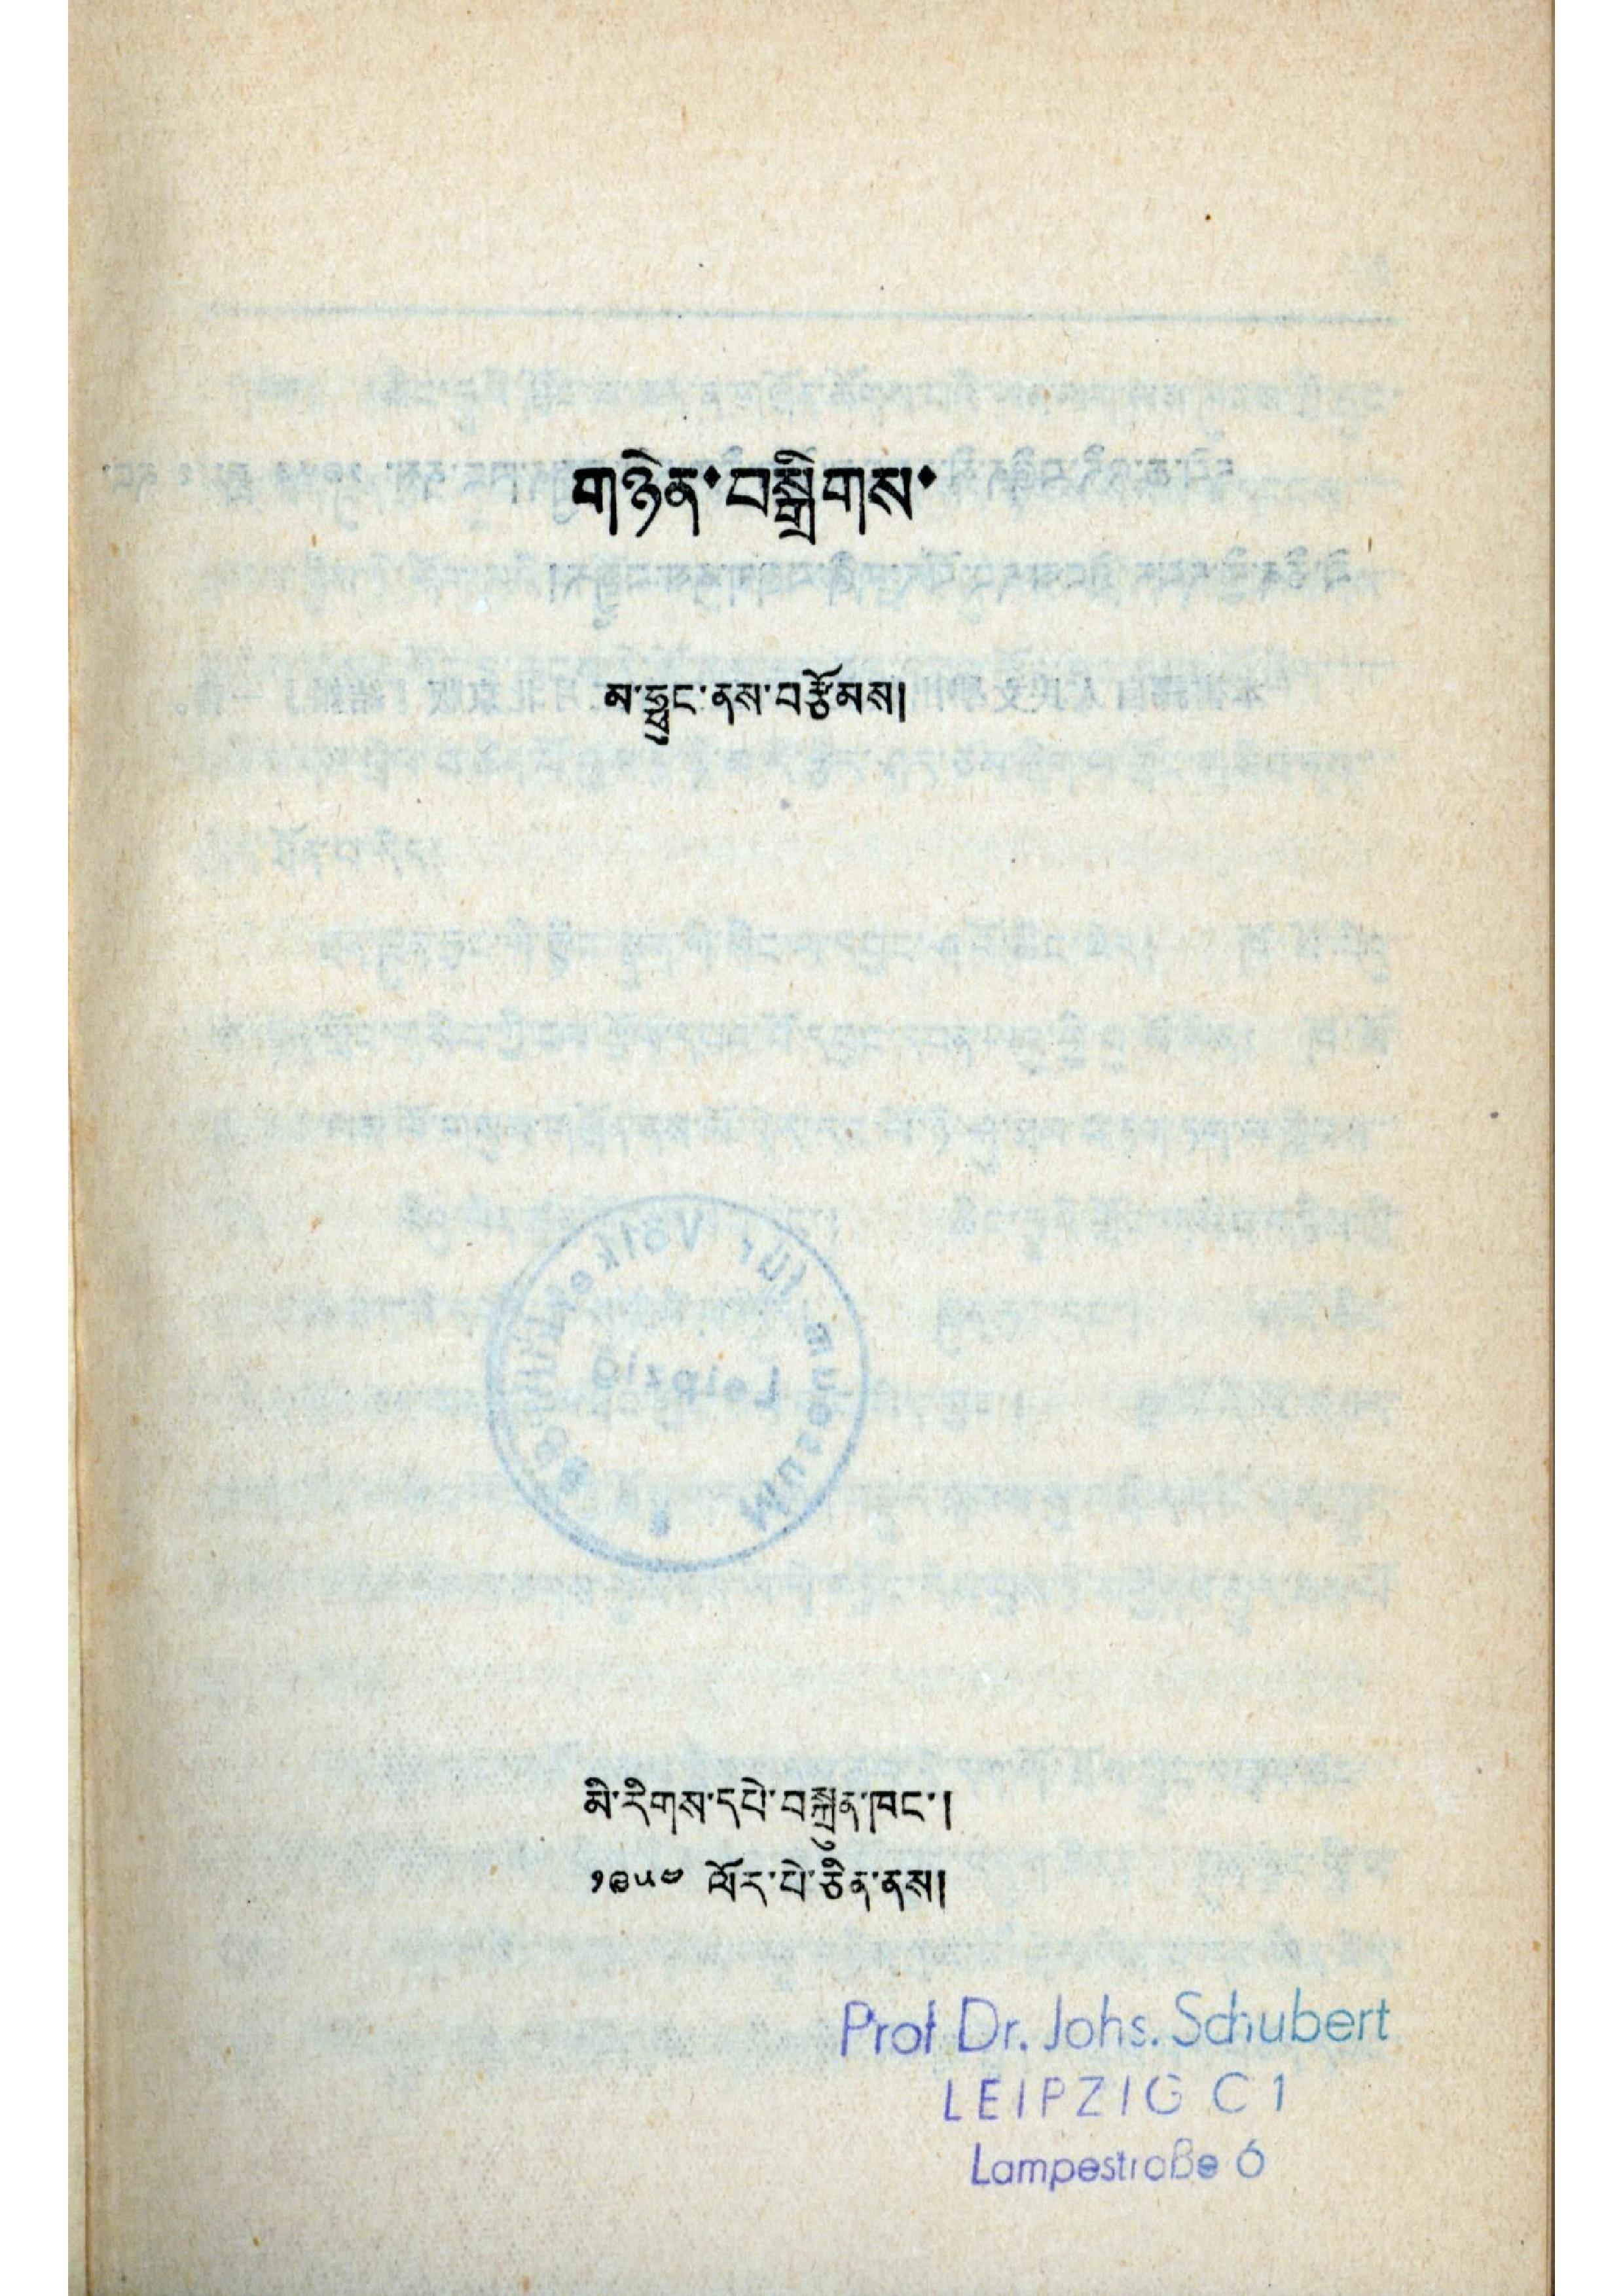གཉེན་བསྒྲིགས་
མ་ཧྥུང་ནས་བརྩོམས།
མི་རིགས་དཔེ་བསྐྲུན་ཁང་།
༡༩༥༤ ལོར་པེ་ཅིན་ནས།
